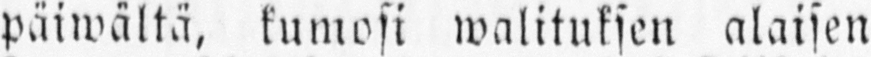päiwältä, kumosi walituksen alaisen
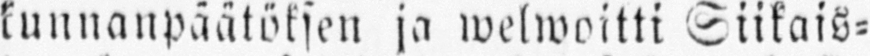kunnanpäätöksen ja welwoitti Siikais-
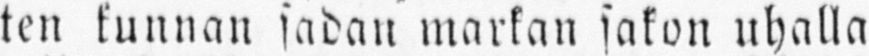ten kunnan sadan markan sakon uhalla
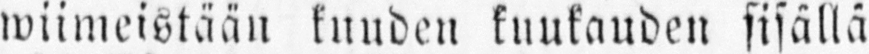wiimeistään kuuden kuukauden sisällä
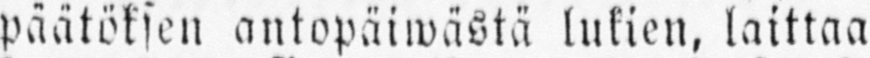päätöksen antopäiwästä lukien, laittaa
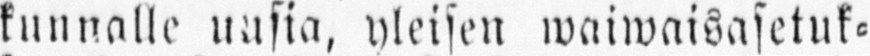kunnalle uusia, yleisen waiwaisasetuk-
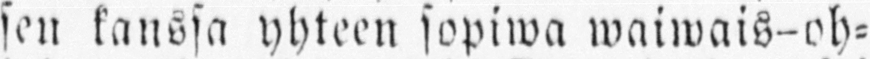sen kanssa yhteen sopiwa waiwais-oh-
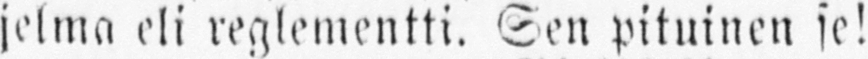jelma eli reglementti. Sen pituinen se!
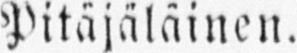Pitäjäläinen.
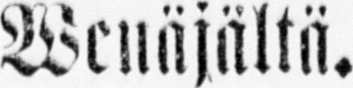Wenäjältä.
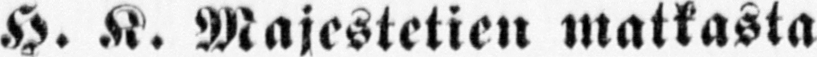H. K. Majestetien matkasta
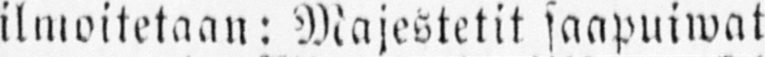ilmoitetaan: Majestetit saapuiwat No-
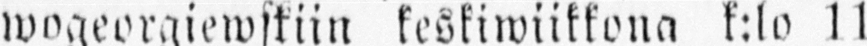wogeorgiewskiin keskiwiikkona k:lo 11
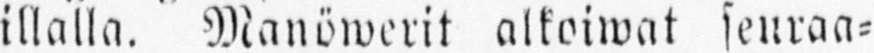illalla. Manöwerit alkoiwat seuraa-
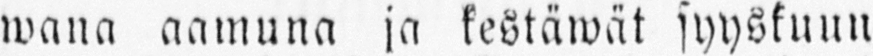wana aamuna ja kestäwät syyskuun
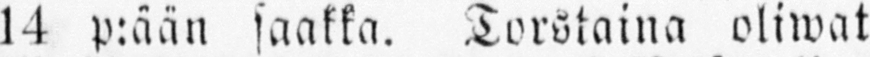14 p:ään saakka. Torstaina oliwat
